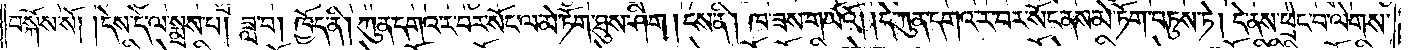བསྐོས་སོ། །དེས་དེ་ལ་སྨྲས་པ། ཟླ་བ། ཁྱོད་ནི། ཀུན་དགའ་ར་བར་སོང་ལ་མེ་ཏོག་ཐུས་ཤིག །ངས་ནི། ཁ་ཟས་གཡོའོ། །དེ་ཀུན་དགའ་ར་བར་སོང་ནས་མེ་ཏོག་བཏུས་ཏེ། དེ་ནས་ཕྲེང་བ་ལེགས་
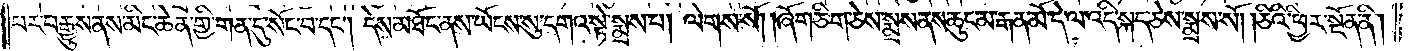པར་བརྒྱུས་ནས་མིང་ཆེན་གྱི་གན་དུ་སོང་བ་དང༌། དེས་མཐོང་ནས་ཡོངས་སུ་དགའ་སྟེ་སྨྲས་པ། ལེགས་སོ། །ཞོག་ཅིག་ཅེས་སྨྲས་ནས་ཆུང་མ་རྒན་མོ་དེ་ལ་འདི་སྐད་ཅེས་སྨྲས་སོ། །ཅིའི་ཕྱིར་སྔོན་ནི།
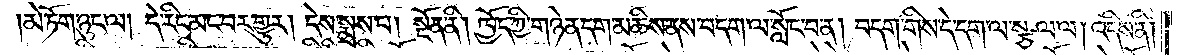མེ་ཏོག་ཉུང་ལ། དེ་རིང་མང་བར་གྱུར། དེས་སྨྲས་པ། སྔོན་ནི། ཁྱོད་ཀྱི་གཉེན་དག་མཆིས་ནས་བདག་ལ་སློང་བ་ན། བདག་གིས་དེ་དག་ལ་སྩལ་ལ། འདིས་ནི།
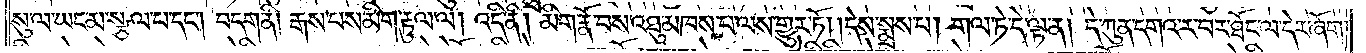སུ་ལ་ཡང་མ་སྩལ་པ་དང༌། བདག་ནི། རྒས་པས་མིག་རྟུལ་ལ། འདི་ནི། མིག་རྣོ་བས་འཐུ་མཁས་པ་ལས་གྱུར་ཏོ། །དེས་སྨྲས་པ། གལ་ཏེ་དེ་ལྟ་ན། དེ་ཀུན་དགའ་ར་བར་ཐོང་ལ་དེར་ཞོག་
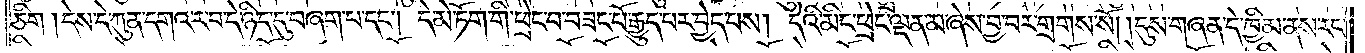ཅིག །དེས་དེ་ཀུན་དགའ་ར་བ་དེ་ཉིད་དུ་བཞག་པ་དང༌། དེ་མེ་ཏོག་གི་ཕྲེང་བ་བཟང་པོ་རྒྱུད་པར་བྱེད་པས། དེའི་མིང་ཕྲེང་ལྡན་མ་ཞེས་བྱ་བར་གྲགས་སོ། །དུས་གཞན་དེ་ཁྱིམ་ནས་རང་
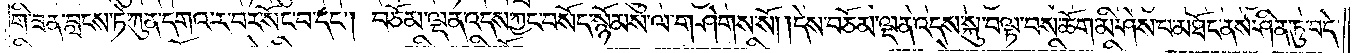གི་ཟན་བླངས་ཏེ་ཀུན་དགའ་ར་བར་སོང་བ་དང༌། བཅོམ་ལྡན་འདས་ཀྱང་བསོད་སྙོམས་ལ་གཤེགས་སོ། །དེས་བཅོམ་ལྡན་འདས་སྐུ་བལྟ་བས་ཆོག་མི་ཤེས་པ་མཐོང་ནས་ཤིན་ཏུ་བདེ་
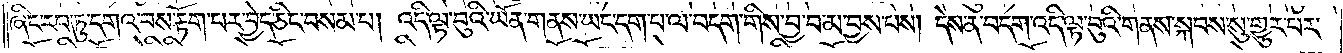ཞིང་རབ་ཏུ་དགའ་བས་རྟོག་པར་བྱེད་ཅིང་བསམ་པ། འདི་ལྟ་བུའི་ཡོན་གནས་ཡང་དག་པ་ལ་བདག་གིས་བྱ་བ་མ་བྱས་པས། དེས་ན་བདག་འདི་ལྟ་བུའི་གནས་སྐབས་སུ་གྱུར་པར་
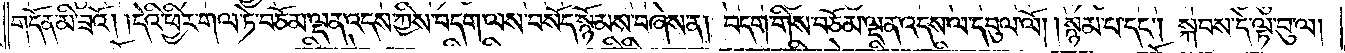གདོན་མི་ཟའོ། །དེའི་ཕྱིར་གལ་ཏེ་བཅོམ་ལྡན་འདས་ཀྱིས་བདག་ལས་བསོད་སྙོམས་བཞེས་ན། བདག་གིས་བཅོམ་ལྡན་འདས་ལ་དབུལ་ལོ། །སྙམ་པ་དང༌། སྐབས་དེ་ལྟ་བུ་ལ།
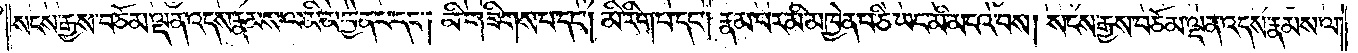སངས་རྒྱས་བཅོམ་ལྡན་འདས་རྣམས་ལ་མི་མཁྱེན་པ་དང༌། མི་གཟིགས་པ་དང༌། མི་རིག་པ་དང༌། རྣམ་པར་མི་མཁྱེན་པ་ཅི་ཡང་མི་མངའ་བས། སངས་རྒྱས་བཅོམ་ལྡན་འདས་རྣམས་ལ་
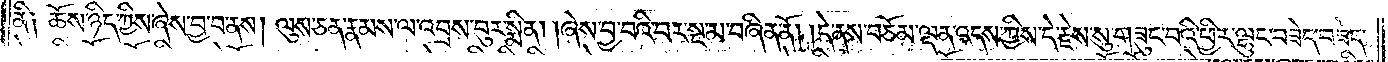ནི༑ ཆོས་ཉིད་ཀྱིས་ཞེས་བྱ་བ་ནས། ལུས་ཅན་རྣམས་ལ་འབྲས་བུར་སྨིན། །ཞེས་བྱ་བའི་བར་སྔ་མ་བཞིན་ནོ། །དེ་ནས་བཅོམ་ལྡན་འདས་ཀྱིས་དེ་རྗེས་སུ་གཟུང་བའི་ཕྱིར་ལྷུང་བཟེད་བཟེད་
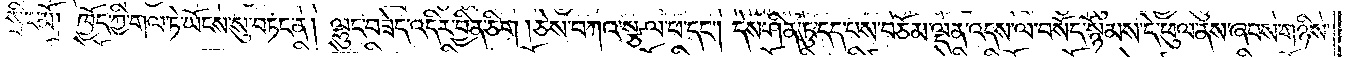སྲིང་མོ། ཁྱོད་ཀྱི་གལ་ཏེ་ཡོངས་སུ་བཏང་ན། ལྷུང་བཟེད་འདིར་བྱིན་ཅིག །ཅེས་བཀའ་སྩལ་པ་དང༌། དེས་ཤིན་ཏུ་དད་པས་བཅོམ་ལྡན་འདས་ལ་བསོད་སྙོམས་དེ་ཕུལ་ནས་ཞབས་གཉིས་
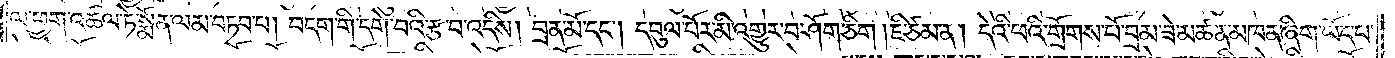ལ་ཕྱག་འཚལ་ཏེ་སྨོན་ལམ་བཏབ་པ། བདག་གི་དགེ་བའི་རྩ་བ་འདིས། བྲན་མོ་དང༌། དབུལ་པོར་མི་འགྱུར་བ་ཤོག་ཅིག །ཇི་ཙམ་ན། དེའི་ཕའི་གྲོགས་པོ་བྲམ་ཟེ་མཚན་མཁན་ཞིག་ཡོད་པ་
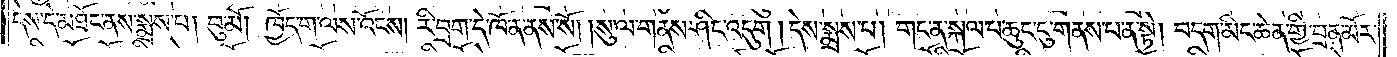དེས་དེ་མཐོང་ནས་སྨྲས་པ། བུ་མོ། ཁྱོད་ག་ལས་འོངས། རི་བྲག་དེ་ཁོ་ན་ནས་སོ། །སུ་ལ་གནས་ཤིང་འདུག །དེས་སྨྲས་པ། གང་ན་སྐལ་པ་ཆུང་ངུ་གནས་པ་ན་སྟེ། བདག་མིང་ཆེན་གྱི་བྲན་མོར་
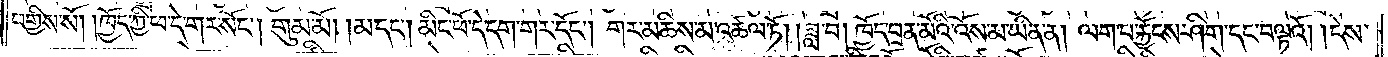བགྱིས་སོ། །ཁྱོད་ཀྱི་ཕ་དེ་གར་སོང༌། གུམ་མོ། །མ་དང༌། མིང་ཕོ་དེ་དག་གར་དོང༌། གར་མཆིས་མ་འཚལ་ཏོ། །ཟླ་བ། ཁྱོད་བྲན་མོའི་འོས་མ་ཡིན་ན། ལག་པ་རྐྱོངས་ཤིག་དང་བལྟའོ། །དེས་
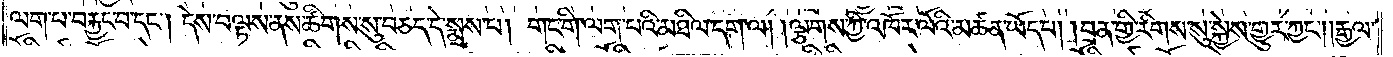ལག་པ་བརྐྱང་པ་དང༌། དེས་བལྟས་ནས་ཚིགས་སུ་བཅད་དེ་སྨྲས་པ། གང་གི་ལག་པའི་མཐིལ་དག་ལ། །ལྕགས་ཀྱི་འཁོར་ལོའི་མཚན་ཡོད་པ། །བྲན་གྱི་རིགས་སུ་སྐྱེས་གྱུར་ཀྱང༌། །རྒྱལ་
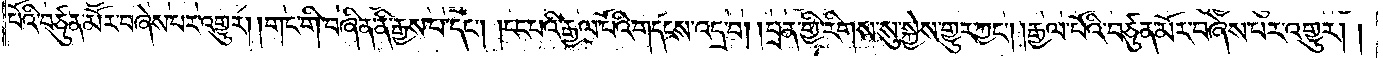པོའི་བཙུན་མོར་བཞེས་པར་འགྱུར། །གང་གི་བཞིན་ནི་རྒྱས་པ་དང༌། །ངང་པའི་རྒྱལ་པོའི་གདངས་འདྲ་བ། །བྲན་གྱི་རིགས་སུ་སྐྱེས་གྱུར་ཀྱང༌། །རྒྱལ་པོའི་བཙུན་མོར་བཞེས་པར་འགྱུར། །
